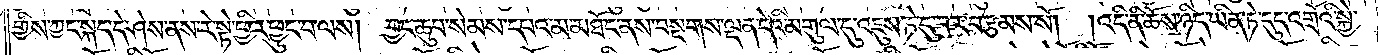གྱིས་ཀྱང་སྐད་དེ་ཤེས་ནས་རེ་སྟེ་ཕྱིར་ཕྱུང་བ་ལས། བྱང་ཆུབ་སེམས་དཔའ་མ་མཐོང་ནས་བསྔགས་ལྡན་དེའི་མགུལ་དུ་འཇུས་ཏེ་དུ་བར་བརྩམས་སོ། །འདི་ནི་ཆོས་ཉིད་ཡིན་ཏེ་དུད་འགྲོའི་སྐྱེ་
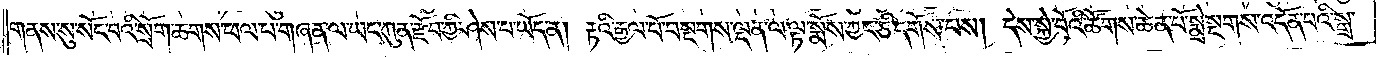གནས་སུ་སོང་བའི་སྲོག་ཆགས་ཕལ་པ་གཞན་ལ་ཡང་ཀུན་རྫོབ་ཀྱི་ཤེས་པ་ཡོད་ན། རྟའི་རྒྱལ་པོ་བསྔགས་ལྡན་ལ་ལྟ་སྨོས་ཀྱང་ཅི་དགོས་པས། དེས་སྐྱེ་བོའི་ཚོགས་ཆེན་པོ་སྨྲེ་སྔགས་འདོན་པའི་སྒྲ་
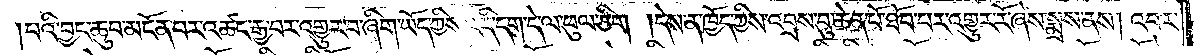པའི་བྱང་ཆུབ་མངོན་པར་འཚང་རྒྱ་བར་འགྱུར་བ་ཞིག་ཡོད་ཀྱིས་འདི་དག་དེ་ལ་ཕུལ་ཅིག །དེས་ན་ཁྱོད་ཀྱིས་འབྲས་བུ་ཆེན་པོ་ཐོབ་པར་འགྱུར་རོ་ཞེས་སྨྲས་ནས། འབར་
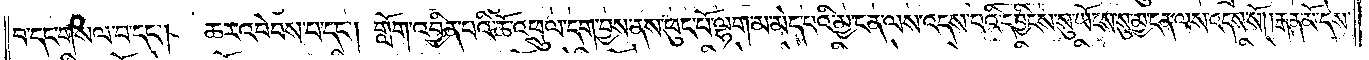བ་དང་གསལ་བ་དང༌། ཆར་འབེབས་པ་དང༌། གློག་འབྱིན་པའི་ཆོ་འཕྲུལ་དག་བྱས་ནས་ཕུང་པོ་ལྷག་མ་མེད་པའི་མྱ་ངན་ལས་འདས་པའི་དབྱིངས་སུ་ཡོངས་སུ་མྱ་ངན་ལས་འདས་སོ། །རྒན་མོ་དེས་
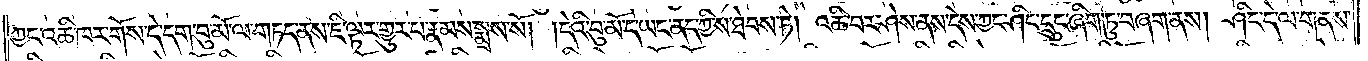ཀྱང་འཆི་ཁར་གོས་དེ་དག་བུ་མོ་ལ་གཏད་ནས་ཇི་ལྟར་གྱུར་པ་རྣམས་སྨྲས་སོ། །དེའི་བུ་མོ་དེ་ཡང་ནད་ཀྱིས་ཐེབས་ཏེ། འཆི་བར་ཤེས་ནས་དེས་ཀྱང་ཤིང་དྲུང་ཞིག་ཏུ་བཞག་ནས། ཤིང་དེ་ལ་གནས་
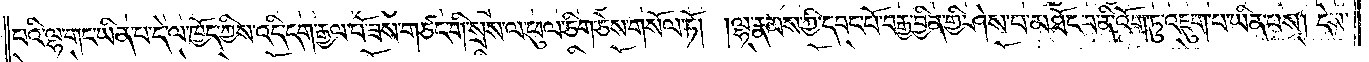པའི་ལྷ་གང་ཡིན་པ་དེ་ལ་ཁྱོད་ཀྱིས་འདི་དག་རྒྱལ་པོ་ཟས་གཙང་གི་སྲས་ལ་ཕུལ་ཅིག་ཅེས་གསོལ་ཏོ། །ལྷ་རྣམས་ཀྱི་དབང་པོ་བརྒྱ་བྱིན་གྱི་ཤེས་པ་མཐོང་བ་ནི་འོག་ཏུ་འཇུག་པ་ཡིན་པས། དེས་
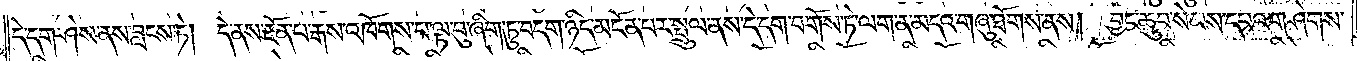དེ་དག་ཤེས་ནས་བླངས་ཏེ། དེ་ནས་རྔོན་པ་རྒས་འཁོགས་པ་ལྟ་བུ་ཞིག་ཏུ་བདག་ཉིད་མངོན་པར་སྤྲུལ་ནས་དེ་དག་བགོས་ཏེ་ལག་ན་མདའ་གཞུ་ཐོགས་ནས། བྱང་ཆུབ་སེམས་དཔའ་གཤེགས་
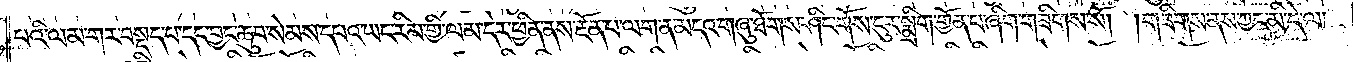པའི་ལམ་གར་བསྡད་པ་དང་བྱང་ཆུབ་སེམས་དཔའ་ཡང་རིམ་གྱི་ལམ་དེར་ཕྱིན་ནས་རྔོན་པ་ལག་ན་མདའ་གཞུ་ཐོགས་ཤིང་གོས་ངུར་སྨྲིག་གྱོན་པ་ཞིག་གཟིགས་སོ། །གཟིགས་ནས་ཀྱང་མི་དེ་ལ་
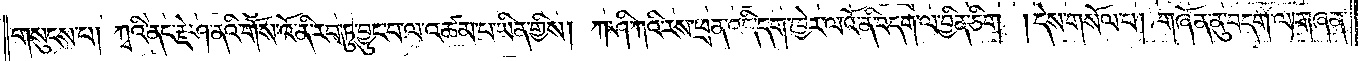གསུངས་པ། ཀྭའི་ནང་རྗེ་ཤ་ནའི་གོས་འོ་ནི་རབ་ཏུ་བྱུང་བ་ལ་འཚམ་པ་ཡིན་གྱིས། ཀ་ཤི་ཀའི་རས་ཕྲན་འདི་དག་ཁྱེར་ལ་འོ་ནི་བདག་ལ་བྱིན་ཅིག །དེས་གསོལ་པ། གཞོན་ནུ་བདག་ལ་གཞན་
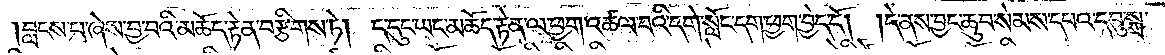བླངས་པ་ཞེས་བྱ་བའི་མཆོད་རྟེན་བརྩིགས་ཏེ། ད་དུང་ཡང་མཆོད་རྟེན་ལ་ཕྱག་འཚལ་བའི་དགེ་སློང་དག་ཕྱག་བྱེད་དོ། །དེ་ནས་བྱང་ཆུབ་སེམས་དཔའ་དབུ་སྐྲ་
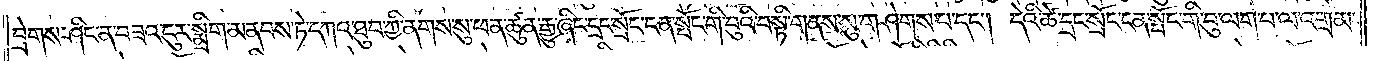བྲེགས་ཤིང་ན་བཟའ་དུར་སྨྲིག་མནབས་ཏེ་དཀའ་ཐུབ་ཀྱི་ནགས་སུ་ཕན་ཚུན་རྒྱུ་ཞིང་དྲང་སྲོང་ངན་སྤོང་གི་བུའི་བསྟི་གནས་སུ་གཤེགས་པ་དང༌། དེའི་ཚེ་དྲང་སྲོང་ངན་སྤོང་གི་བུ་ལག་པ་ལ་འགྲམ་
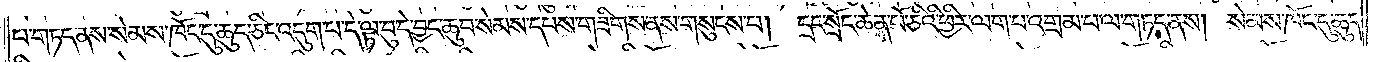པ་གཏད་ནས་སེམས་ཁོང་དུ་ཆུད་ཅིང་འདུག་པ་དེ་ལྟ་བུ་དེ་བྱང་ཆུབ་སེམས་དཔས་གཟིགས་ནས་གསུངས་པ། དྲང་སྲོང་ཆེན་པོ་ཅིའི་ཕྱིར་ལག་པ་འགྲམ་པ་ལ་གཏད་ནས། སེམས་ཁོང་དུ་ཆུད་
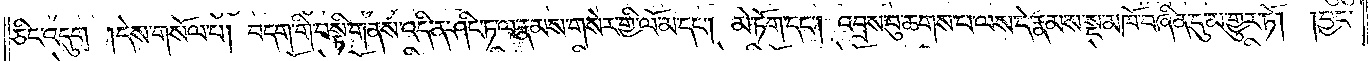ཅིང་འདུག །དེས་གསོལ་པ། བདག་གི་བསྟི་གནས་འདི་ན་ཤིང་ཏ་ལ་རྣམས་གསེར་གྱི་ལོ་མ་དང༌། མེ་ཏོག་དང༌། འབྲས་བུ་ཆགས་པ་ལས་དེ་རྣམས་སྔ་མཁོ་བཞིན་དུ་མ་གྱུར་ཏོ། །བྱང་
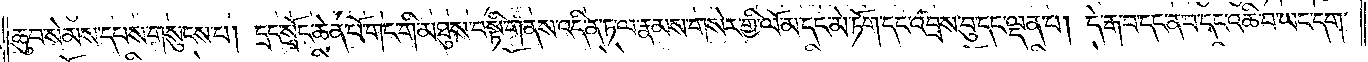ཆུབ་སེམས་དཔས་གསུངས་པ། དྲང་སྲོང་ཆེན་པོ་གང་གི་མཐུས་བསྟི་གནས་འདི་ན་ཏ་ལ་རྣམས་གསེར་གྱི་ལོ་མ་དང་མེ་ཏོག་དང་འབྲས་བུ་དང་ལྡན་པ། དེ་རྒ་བ་དང་ན་བ་དང་འཆི་བ་ཡང་དག་
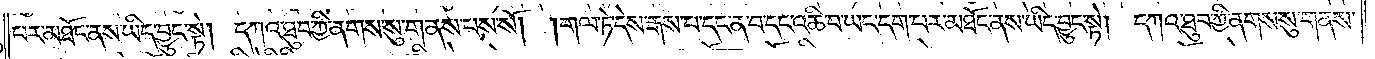པར་མཐོང་ནས་ཡིད་བྱུང་སྟེ། དཀའ་ཐུབ་ཀྱི་ནགས་སུ་གནས་པས་སོ། །གལ་ཏེ་དེས་རྒས་པ་དང་ན་བ་དང་འཆི་བ་ཡང་དག་པར་མཐོང་ནས་ཡིད་བྱུང་སྟེ། དཀའ་ཐུབ་ཀྱི་ནགས་སུ་གནས་
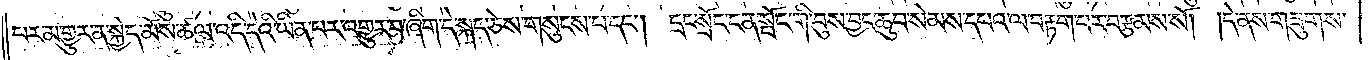པར་མ་གྱུར་ན་སྐྱེད་མོས་ཚལ་འདི་དེའི་ཡིན་པར་འགྱུར་བ་ཞིག་དེ་སྐད་ཅེས་གསུངས་པ་དང༌། དྲང་སྲོང་ངན་སྤོང་གི་བུས་བྱང་ཆུབ་སེམས་དཔའ་ལ་བརྟག་པར་བརྩམས་སོ། །དེ་ནས་གཟུགས་
